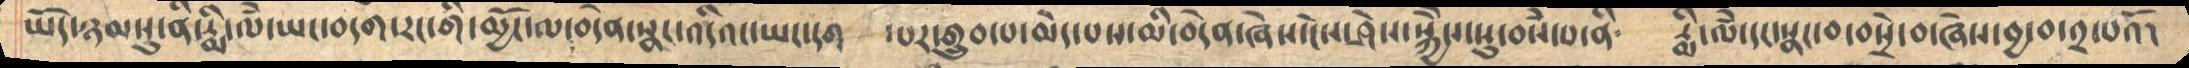ཡོད་ཉམསུ་ནི་རྨི་ལྃ་ཡང་བདག་རང་གི་མྱོང་ལ་བདེན་སྣང་འདིའང་ཡང་དག ་པར་གྲུབ་པ་མེད་པས་མི་བདེན་ཞེས་ངེས་ཤེས་སྐྱེེས་སུ་བསྃ་པ་ནི༴ རྨི་ལྃ་དང་སྣང་བ་བསྲེ་བ་ཞེས་བྱ་བ་༢་པའོ།
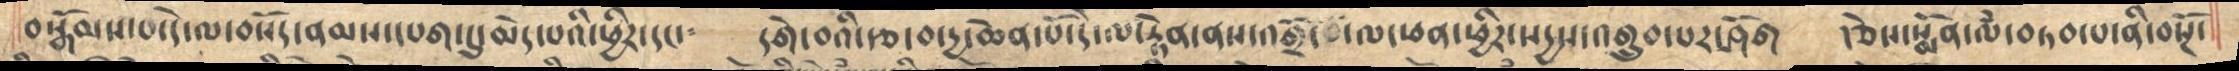བསྒོམས་པ་དེ་ལ་བསོད་ནམས་དཔག་དུ་མེད་པའི་ཕྱིར་དང་༴ དགེ་བའི་རྩ་བ་དྱ་ཆེན་པོ་དེ་ལ་རྟེན་ནས་འགྲོ་བ་ལ་ཕན་ཕྱིར་སདྱས་འགྲུབ་པར་ཤོག །ཅེས་སྨོན་ལྃ་བཏབ་པ་ནི་བསྔོ་
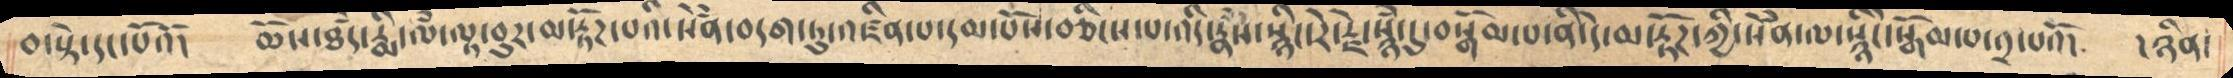བ་སྟེ་དང་པོའོ།   ཆོས་ཐྃད་རྨི་ལྃ་ལྟ་བུར་མ་རྟོཌ་པའི་སེྃན་བདག་ཏུ་འཛིན་པ་དམ་པོས་བཅིངས་པ་འདི་རྣྃས་སྙིང་རེ་རྗེ་སྙྃ་དུ་བསྒོམ་པ་ནི་དེ་མ་རྟོཌ་ཀྱི་སེྃན་ལ་སྙིེང་སྒོམ་པ་༢་པའོ། །ཉིན།
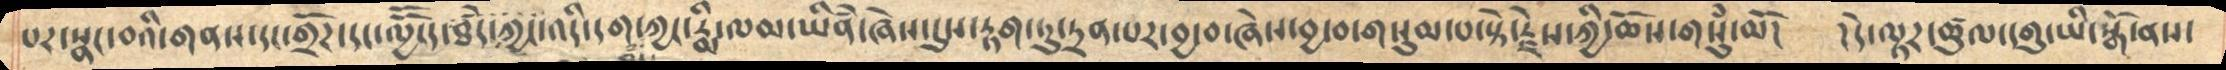པར་སྣང་བའི་གནས་དང་གྲོཌ་དང་ལྱོོངད་ཐྃད་ཀྱང་འདི་དག་ཀྱང་རྨི་ལམ་ཡིནཾ་ཞེས་དུས་རྟག་ཏུ་དྲན་པར་བྱ་བ་ཞེས་བྱ་བ་གསུམ་པ་སྟེ་རྗེས་ཀྱི་ཆོས་གསུྃ་མོ།  །དེ་ལྟར་ཚུལ་དགུ་ཡི་སྒོ་ནས།
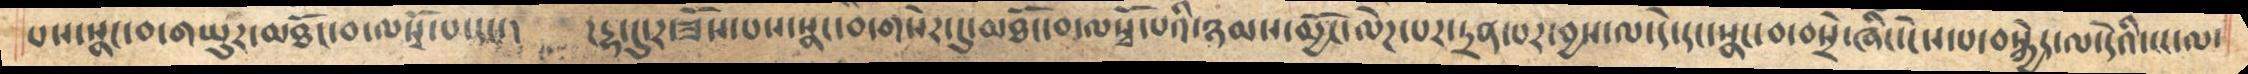པས་སྣང་བ་གཡུཌ་མཐོང་ལསྭོ་པ་དང་། །རྡ་དུ་ར་ཟོས་པས་སྣང་བ་གསེར་དུ་མཐོང་བ་ལསྭོ་པའི་ཉམས་མྱོང་ལེཌ་པར་དྲན་པར་བྱས་ལ་དེ་དང་སྣང་བ་བསྲེ་ཞིང་ངེས་པ་བསྐྱེད་ལ་དེའི་ངང་ལ་
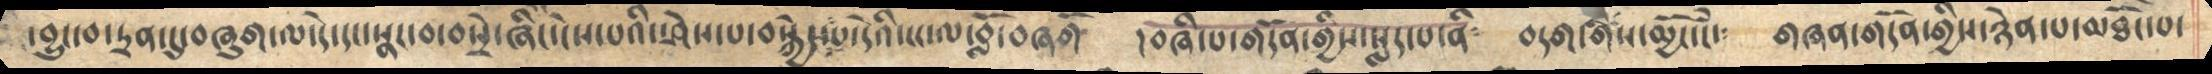་བྱུང་བ་དྲན་དུ་བཞུག་ལ་དེ་དང་སྣང་བ་བསྲེ་ཞིང་ངེས་པའི་ཤེས་པ་བསྐྱེད་པ་དེའི་ངང་ལ་བློ་བཞགོ །བཞི་པ་གདོན་གྱིས་སླད་པ་ནི༴ བདག་གིས་མྱོང་ངཾ་༴ གཞན་གདོན་གྱི་ཉེན་པ་མཐོང་པ་
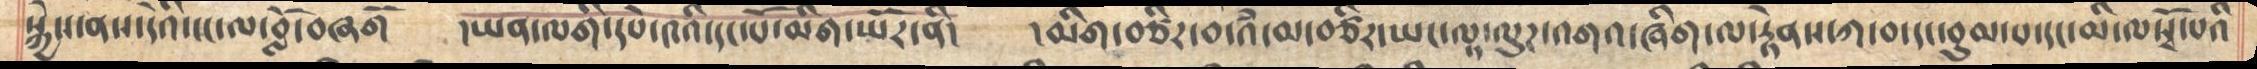སྐྱེས་ནས་དེའི་ངང་ལ་བློ་བཞགོ དཡན་ལགི་དཔེ་༤འི་དང་པོ་མིག་ཡོར་ནི། །མིག་བཙིར་བ་འྃ་མ་བཙིར་ཡང་ལྷ་ལུཌ་འགའ་ཞིག་ལ་རྟེནས་ཀ་བ་དང་བུམ་པ་དང་མི་ལསྭོ་པའི
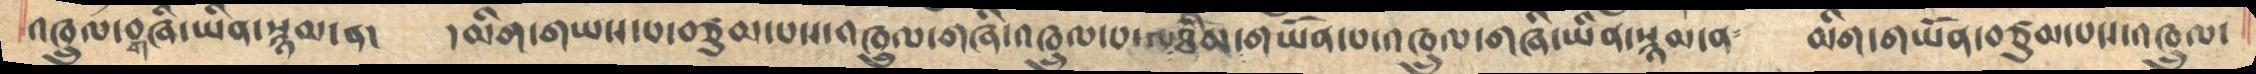འཁྲུལ་གཞི་ཡིན་སྙམ་ན།    །མིག་གཡས་པ་བཙུམ་པས་འཁྲུལ་གཞི་འཁྲུལ་པ་ལཐིམ་གཡོན་པ་འཁྲུལ་གཞི་ཡིན་སྙམ་ན༴   མིག་གཡོན་བཙུམ་པས་འཁྲུལ་
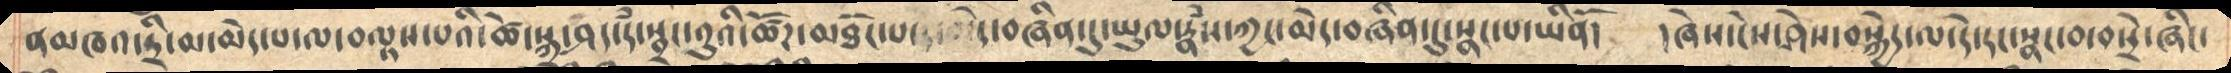ནམཁའ་དྲི་མ་མེད་པ་ལ་བལྟས་པའི་ཚེ་སྐྲ་ཤད་དཾ་སྦྲང་བུའི་ཚོཌ་མཐོང་པ་དེ་བཞིན་དུ་ཡུལ་རྣཾས་ཀྱང་མེད་བཞིན་དུ་སྣང་པ་ཡིནོ།   །ཞེས་ངེས་ཤེས་བསྐྱེད་ལ་དེ་དང་སྣང་བ་བསྲེ་ཞིང་
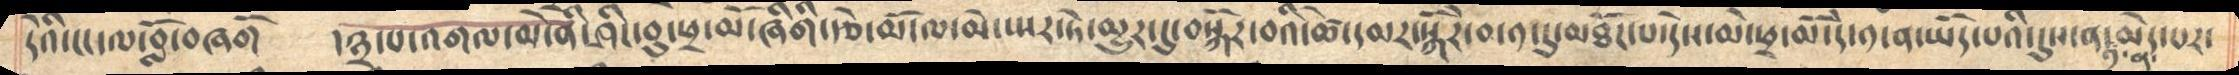དེའི་ངང་ལ་བློ་བཞགོ    །༣་པ་འགལ་མེ་ནི་ཤིང་བུ་ཕྲ་མོ་ཞིགི་རྩེ་མོ་ལ་མེ་སྤར་ཏེ་མྱུར་དུ་བསྐོར་བའི་ཚེ་དམར་སྒོར་བ་༡་དུ་མཐོང་པ་དེས་མེ་ཕྲ་མོ་དེ་༡་ན་ཡོད་པའི་དུས་ན་༡་ན་མེད་པར་
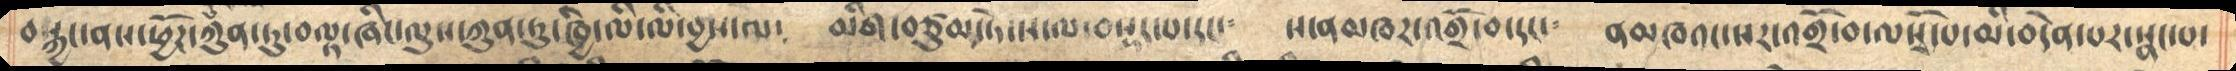བསྐྱང་ནས་ཕྱོཌ་ཀུན་ཏུ་བལྟ་ཞིང་ལུས་ཀུན་ཏུ་ཁྱི་ལི་ལི་བྱས་ལ༴   མིག་བཙུམ་ཏེ་ས་ལ་བསྡད་པ་དང་༴    ས་ནམཁར་འགྲོ་བ་དང་༴  ནམཁའང་སར་འགྲོ་བ་ལསྭོ་པ་མི་བདེན་པར་སྣང་པ་
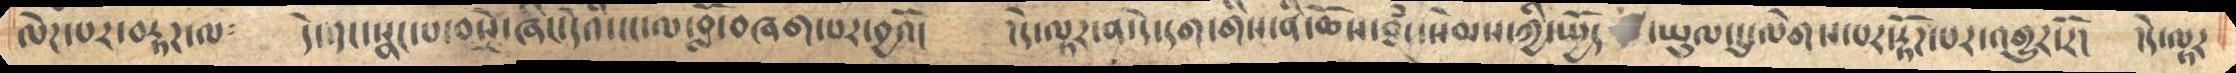ལེཌ་པར་བརྟཌ་ལ༴    དེ་འང་སྣང་པ་བསྲེ་ཞིང་དེའི་ངང་ལ་བློ་བཞག་པར་བྱའོ།    །དེ་ལྟར་ན་དེ་དག་གིས་ནི་ཆོས་ཐམད་སེམས་ཀྱི་སྤྱོད་ཡུལ་དུ་ལེགས་པར་རྟོཌ་པར་འགྱུར་རོ།    །དེ་ལྟར
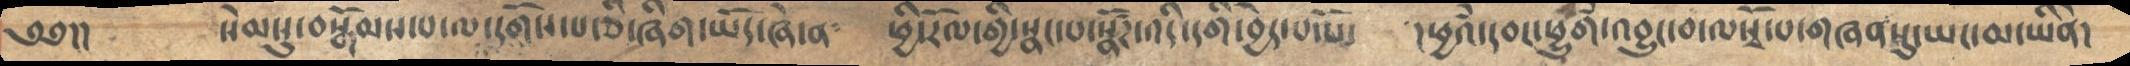༄༅ །།     སེམསུ་བསྒོམས་པ་ལ་དགོས་པ་ཅི་ཞིག་ཡོད་ཞེ་ན༴    ཕྱི་རོལ་གྱི་སྣང་བ་སྣཚོགས་འདི་དགི་བྱེད་པ་པོ་    །ཕྱའཾ་དབང་ཕྱུག་འབྱུང་བ་ལསྭོ་པ་གཞན་དུ་ཡང་མ་ཡིནོ།
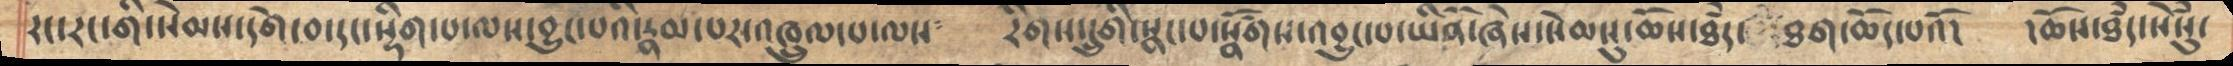རང་རང་གི་སེམས་དགེ་བ་དང་སྡིག་པ་ལས་བྱུང་པའི་རྣམ་པར་འཁྲུལ་པ་ལས༴    རིགས་དྲུགི་སྣང་པ་སྣཚོགས་འབྱུང་པ་ཡིནོ་ཞེས་སེམསུ་ཆོས་ཐམད་ཐག་ཆོད་པའོ།    །ཆོས་ཐམད་སེཾསུ་
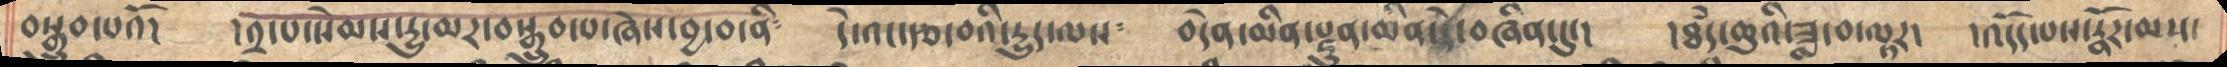བསྒྲུབ་པའོ།     །༢་པ་སེམས་དྱུ་མར་བསྒྲུབ་པ་ཞེས་བྱ་བ་ནི༴      དེ་འང་རྩ་བའི་དྱུད་ལས༴     བདེན་མིན་རྫུན་མིན་དེ་བཞིན་དུ་།    །ཐམད་ཆུའི་ཟླ་བ་ལྟར།   །འདོད་པས་རྣོར་མས་
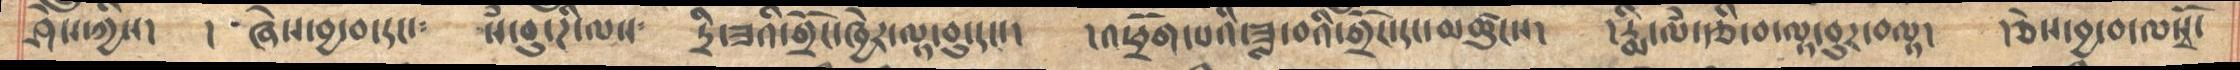ཤེས་ཀྱིས་།      །  ཞེས་བྱ་བ་དང་ ༴     སཾ་བུ་ཌི་ལས༴    དྲི་ཟའི་གྲོང་ཁྱེར་ལྡ་བུ་དང་།    །འཕྲོག་པའི་ཟླ་བའི་གྲོང་དང་མཚུངས།    །རྨི་ལཾ་རྩི་བ་ལྟ་བུར་བལྡ།   །ཅེས་བྱ་བ་ལསྭོ་
